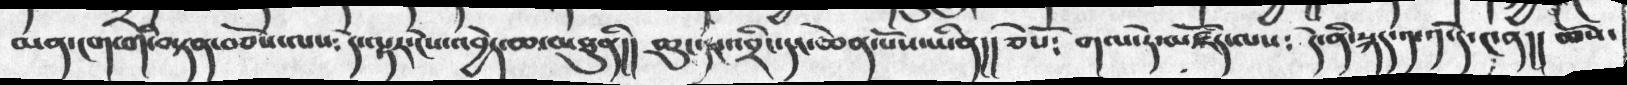མན་ངག་གི་བསྟན་བཅོས་ལས༴  དེ་ལྟར་ངེས་འབྱེད་ཆ་མཐུནི།། ཆུང་དང་འབྲིང་དང་ཆེན་པོས་ཡིན།། ཅེསོ༴  གལ་ཏེ་མཛོད་ལས༴  དེ་ནི་སྐད་༡་༡་དེ་༤ན།། ཆོས་
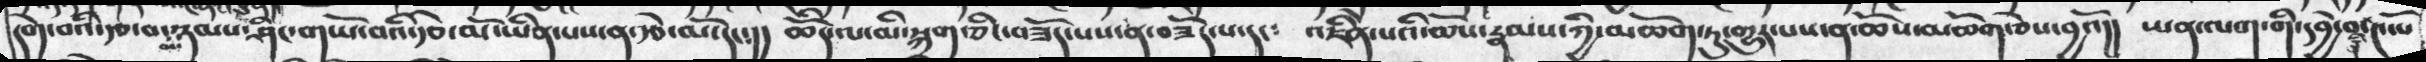དགེ་བའི་རྩ་བ་མི་ཉམས་ཤིང་གཡོ་བའི་རྩེ་མོ་ཡིན་པས་ན་རྩེ་མོ་དང༴།།  ཆོིད་ལ་མི་སྐྲག་ཅིང་བཟོད་པས་ན་བཟོད་པ་དང༴  འཇིེན་པའི་ཆོས་རྣམས་ཀྱི་མཆོག་ཏུ་གྱུར་པས་ན་ཆོས་མཆོག་ཅེས་བྱའོ།།  ཡན་ལག་གི་དབྱེ་བ་ནི་༤་པོ
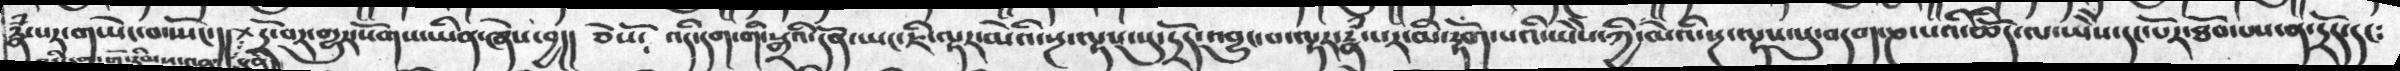རྣཾ་པར་གཡེང་བ་སྤོང་།།  +དྲོ་བར་གྱུར་སོགས་ཡིན་ཞེས་བྱ།།  ཅེསོ༴  འདི་དག་གི་སྒྲའི་དོན་ཡང་ཇི་ལྟར་མེའི་སྔ་ལྟས་སུ་དྲོད་འབྱུང་བ་ལྟར་རྣཾ་པར་མི་རྟོག་པའི་ཡེེས་ཀྱི་མེའི་སྔ་ལྟས་སུ་བདག་ཎ་པའི་ཆོིད་ལ་ཡེེས་དང་པོར་ཐོབ་པས་ན་དྲོད་དང༴
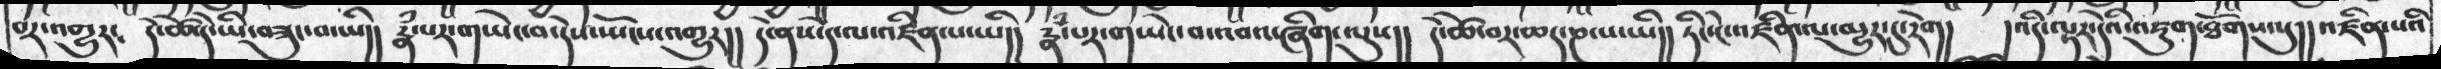པར་འགྱུར༴  དེ་ཚེ་དེ་ཡི་བཟུང་བ་ཡི།། རྣཾ་པར་གཡེང་བ་རེས་སྤོངས་འགྱུར།། དེ་ནས་དེ་ལ་འཛིན་པ་ཡི།། རྣཾ་པར་གཡེང་བ་འབའ་ཞིག་ལུས།། དེ་ཚེ་བར་ཆད་ཎ་པ་ཡི།། ཏིང་ངེ་འཛིན་ལ་མྱུར་དུརེག།  །འདི་ལྟར་དེའི་འཇུག་ཐོགས་སུ།། འཛིན་པའ
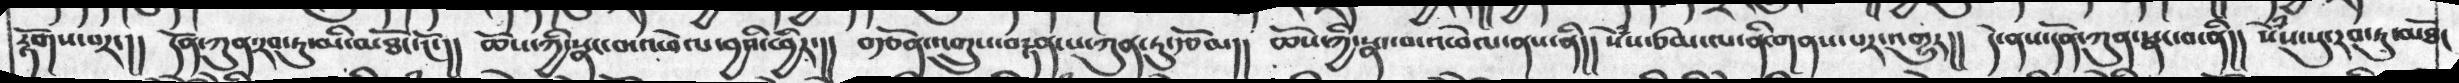རྟོགས་པར་།། དོན་ཀུན་རབ་ཏུ་མི་མཐོང་ངོ་།། ཆོས་ཀྱི་སྣང་བ་འཕེལ་བྱའི་ཕྱིར་།།  བརྩོན་འགྲུས་བརྟན་པ་ཀུན་ཏུ་རྩོམ།། ཆོས་ཀྱི་སྣང་བ་འཕེལ་ནས་ནི།། སེཾས་ཙམ་ལ་ནི་གནས་པར་འགྱུར།། དེ་ནས་དོན་ཀུན་སྣང་བ་ནི།། སེཾས་སུ་རབ་ཏུ་མཐོང
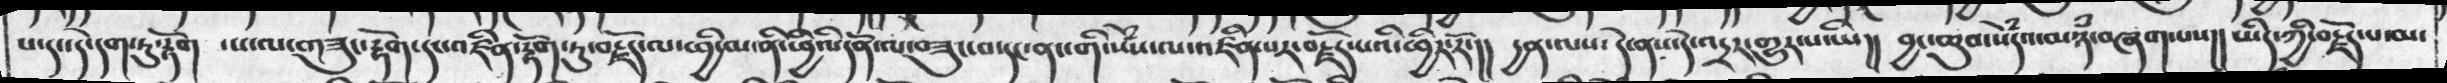པ་དང་དེ་དག་རྟོག  ་ས་ལ་གཟུང་རྟོག་དང་འཛིན་རྟོག་ཏུ་བརྗོད་ལ་ཕྱི་མ་ནི་ཕྱིའི་དོན་ལ་བཟུང་བ་དང་ནང་གི་སེཾས་ལ་འཛིནཔར་བརྗོད་པའི་ཕྱིར་རོ་།། དྱན་ལས་ དེ་ནས་དེ་འདྲར་གྱུར་པ་ཡི།། བྱང་ཆུབ་སེཾདའ་མཉཾ་བཞག་པས།། ཡིད་ཀྱི་བརྗོད་པ་མ་
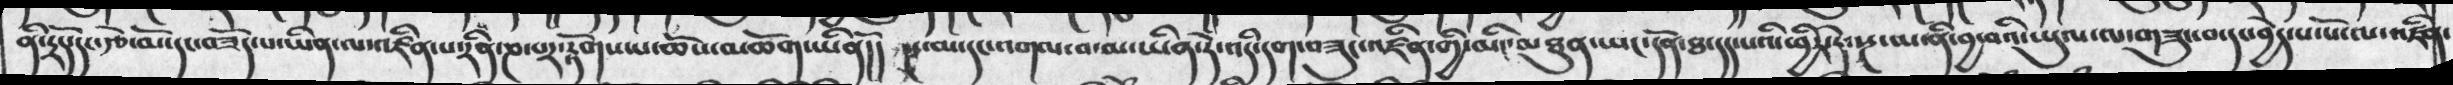ནི་དྲོད་དང་རྩེ་མོ་དང་བཟོད་པ་ཡིན་ལ་འཛིན་པ་རིན་ཎ་པར་རྟོགས་པ་ཆོས་མཆོག་ཡིནོ།།  སྔ་མ་དང་འགལ་བ་མི་ཡིན་ཏེ་འདི་དག་བཟུང་འཛིན་གྱི་མིང་མཐུན་ཡང་དོན་ཐ་དད་པའི་ཕྱིར་ཏེ་སྔ་མ་ནི་བྱ་བའི་ཡུལ་ལ་གཟུང་བ་དང་བྱེད་པ་པོ་ལ་འཛིན་
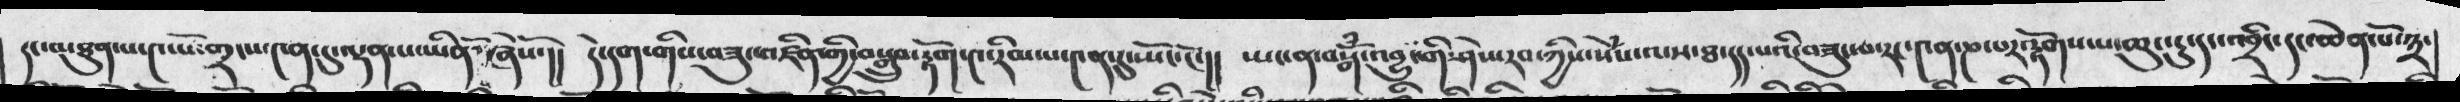དང་མཐུན་པ་༤་པོ་གྲངས་༤ན་དུ་ལྡན་པ་ཡིནོ་ཞེསོ་།།  དེ་དག་གིས་བཟུང་འཛིན་གྱི་བསྒྲུབ་རྟོག་༤་རིམ་པ་༤ན་དུ་སྤོང་ངོ་།།  ཡང་ན་བསྒོཾ་འབྱུང་གི་ཤེས་རབ་ཀྱིས་སེཾས་ལས་ཐ་དད་པའི་བཟུང་པ་རང་༤ན་ཎ་པར་རྟོགས་པ་ཆུང་ངུ་དང་འབྲིང་དང་ཆེན་པོ་༣་
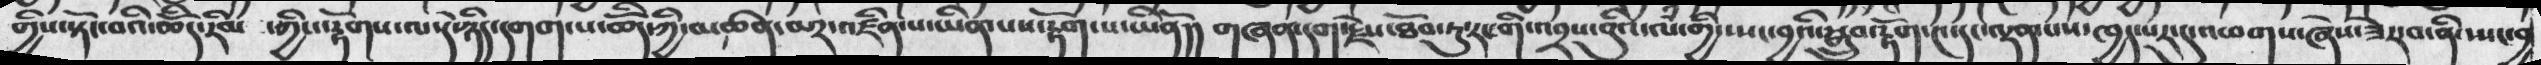གྱིས་སྟོང་བའི་ཆོིད་རིམ་  གྱིས་རྟོགས་ལ་དེ་ཉིད་དགག་པ་ཆོིད་ཀྱི་མཚན་མར་འཛིན་པ་ཡིན་པས་རྟོག་པ་ཡིནོ།།  གཞན་དག་རྗེས་ཐོབ་ཏུ་རང་གི་འབྲས་བུའི་ལཾ་གྱི་སྤང་བྱའི་སྒྲུབ་རྟོག་༤་དང་ལྡན་པས་ཁྱད་པར་དུ་འཕགས་ཞེས་ཟེར་བ་ནི་སྤང་བྱ
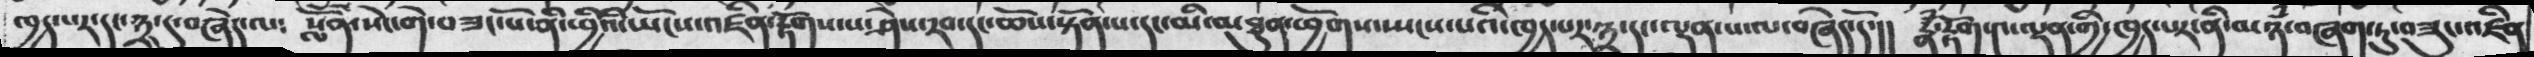ཁྱད་པར་དང་༣་དུ་བཞེད་ལ༴ སློོན་སེང་གེ་བཟང་པོ་ནི་ཕྱིའི་ཡོངས་འཛིན་རྟོགས་པ་ཤེས་རབ་དང་ཆོས་སྟོན་པ་དང་མི་མཐུན་ཕྱོགས་སྤངས་པའི་ཁྱད་པར་༣་དང་ལྡན་པ་བཞེད་དོ་།།  རྣཾ་རྟོག་༤་ལྡན་གྱི་ཁྱད་པར་ནི་མཉཾ་བཞག་ཏུ་བཟུང་འཛིན
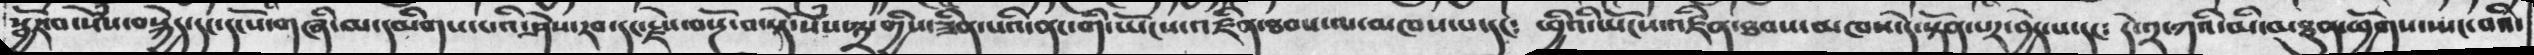སྦྱོར་བ་སེཾས་བསྐྱེད་དང་དངོས་གཞི་མ་དམིགས་པའི་ཤེས་རབ་དང་རྗེས་བསྔོ་བ་སྟེ་སེཾས་༣་གྱིས་ཟིན་པའི་ནང་གི་ཡོངས་འཛིན་ཐབས་ལ་མཁས་པ་དང༴   ཕྱིའི་ཡོངས་འཛིན་ཐབས་མཁས་དེ་སྟོན་པར་བྱེད་པ་དང༴  དེ་༢་ཀའི་མི་མཐུན་ཕྱོགས་སྤང་བའི་
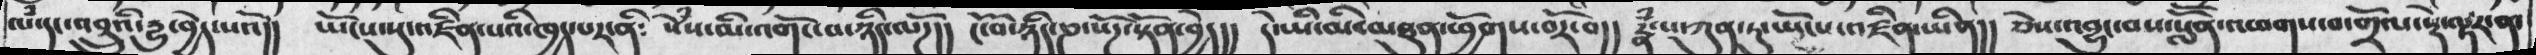ལཾ་དང་འབྲུའི་རྱུ་བྱེད་པའོ།།  ཡོངས་སུ་འཛིན་པའི་ཁྱད་པར་ནི༴  སེྃས་མི་འགོང་བ་ཉིད་ལོཌ།།  ངོ་བོ་ཉིད་ཎ་སོཌ་སྟོན་བྱེད།།  དེ་ཡི་མི་མཐུན་ཕྱོགས་བོར་བ།།   རྣཾ་པ་ཀུན་ཏུ་ཡོངས་འཛིན་ཡིན།།   ཅེས་འབྱུང་བས་སློོན་འཕགས་བ་གྲོལ་སྡེ་ལྟར་ན་
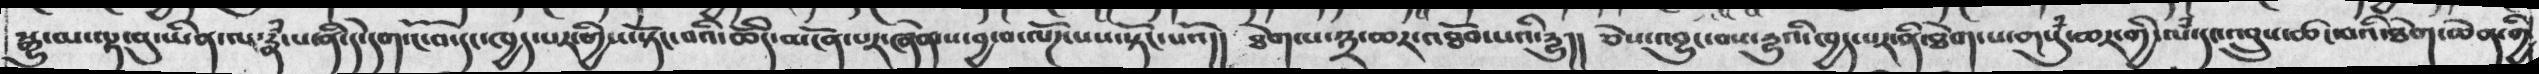སྒྱུ་མ་ལྟ་བུ་ཡིན་ལ་རྣཾ་པ་ནི་དེ་དག་ངོ་བོ་དང་ཁྱད་པར་གྱིས་སྟོང་བའི་ཆོིད་མངོན་པར་ཞེན་པ་བྱ་བ་ལོཌ་པས་སྟོང་པའོ།།  ཐེག་པ་༣་ཆར་འཐོབ་པའི་རྱུ།།  ཅེས་འབྱུང་བས་རྱུའི་ཁྱད་པར་ནི་ཐེག་པ་གསུཾ་ཆར་གྱི་ལཾ་དང་འབྲུས་ཚང་བའི་ཐེག་ཆེན་གྱི
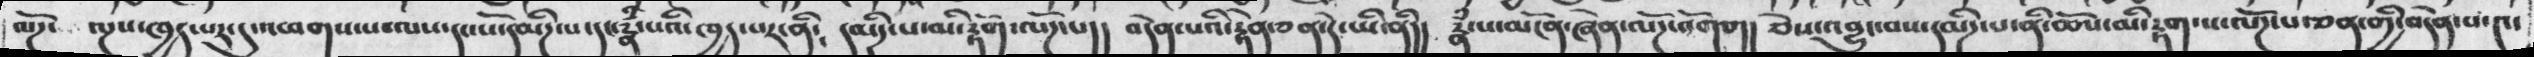ལོཌ་   ལྔས་ཁྱད་པར་དུ་འཕགས་པ་ལས་དང་པོ་དམིཌ་པ་དང་རྣཾ་པའི་ཁྱད་པར་ནི༴  དམིཌ་པ་མི་རྟོག་ལོཌ་པ།།  བདེན་པའི་རྟེན་ཅན་དེ་ཡི་ནི།།  རྣཾ་པ་མངོན་ཞེན་ལོཌ་འགོག།  ཅེས་འབྱུང་བས་དམིཌ་པ་ནི་ཆོས་མི་རྟག་པ་ལོཌ་པ་ཅན་གྱི་བདེན་པ་༤་
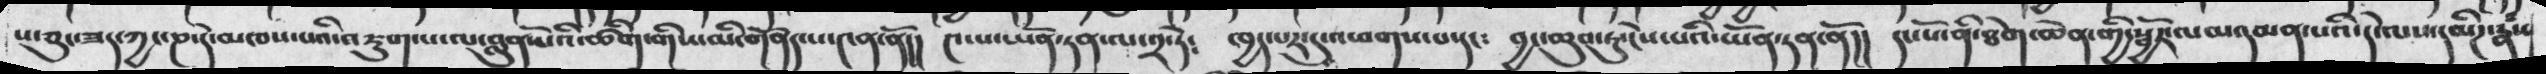ས་ཅུང་ཟད་ཀྱང་ཎ་དེ་མཁས་པའི་འཇུག་པ་ལ་བླུན་པོའི་ཚིག་གིས་མི་གནོད་པ་༤ན་ནོ།།  ༤་པ་ཡོན་ཏན་ལ་༢་ཏེ༴  ཁྱད་པར་དུ་འཕགས་པ་དང༴  བྱང་ཆུབ་ཏུ་ངེས་པའི་ཡོན་ཏན་ནོ།།    དང་པོ་ནི་ཐེག་ཆེན་གྱི་སྦྱོར་ལམ་དམན་པའི་དེ་ལས་དམིཌ་རྣཾས
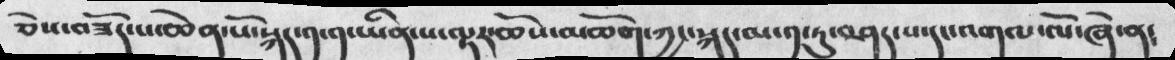ཅེས་བཟོད་པ་ཆེན་པོ་སྐད་༡་༡་ཡིན་པ་ལྟར་ཆོས་མཆོག་ཀྱང་སྐད་མ་༡་ཏུ་བཤད་པ་དང་འགལ་ལོ་ཞེ་ན།
